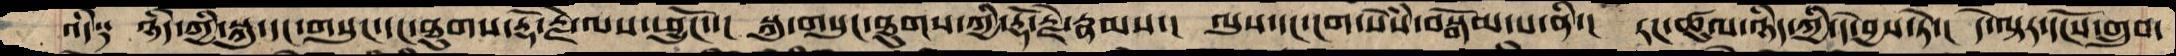འདི༑   ཉིད་ཀྱི་སྐུ་དང་གསུང་དང་ཐུགས་རྡོ་རྗེ་ལས་ཕྱུངོ་་།  སྐུ་གསུང་ཐུགས་ཀྱི་རྡོ་རྗེ་རྣམས་།  ལུས་དང་ངག་སེཾས་བསྒོམ་པ་ནི་།  རང་ཚུལ་ཉིད་ཀྱི་དེ་བྱས་ཏེ་།  དེ་ལྟར་དངོས་གྲུབ་
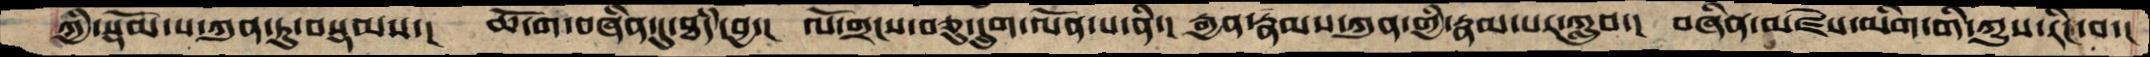ཀྱི་སྡོམ་པ་ཀུན་ཏུ་བསྡམས་།  ཆོ་ག་བཞིན་དུ་ཐདཾ་བྱ་།  ལོ་གྲངས་བཅུ་དྲུག་ལོན་པ་ནི་།  རྒྱན་རྣམས་ཀུན་གྱི་རྣམ་པར་ཀླུབ་།  བཞིན་མཛེས་མིག་གི་ཀྱུས་རིང་བ་།
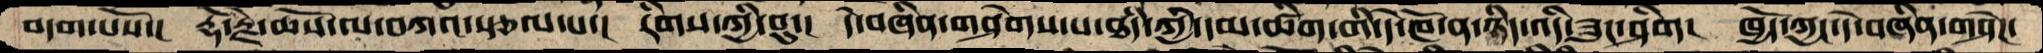བདག་པོས་།   རྡོ་རྗེ་ཆོས་ལ་བཀའ་སྩལ་པ་།  རིགས་ཀྱི་བུ་།  དེ་བཞིན་གཤེགས་པ་ཐཾད་ཀྱི་དམ་ཚིག་གི་དེ་ཁོ་ན་ཉིད་འདི་ཟུང་ཤིག།   ཁྱོད་ཀྱང་དེ་བཞིན་གཤེཌ་
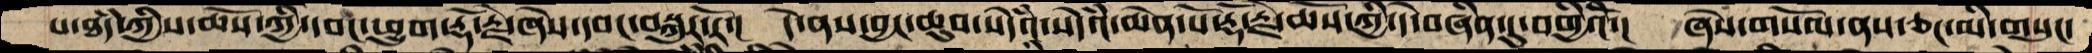པ་ཐདཾ་ཀྱི་ཆོས་ཀྱི་དབང་ཕྱུག་རྡོ་རྗེ་ཞེས་དབང་བསྐུར་རོ་།  དེ་ནས་བྱང་ཆུབ་སེདཾའ་སེདཾའ་ཆེན་པོ་རྡོ་རྗེ་ཆོས་ཀྱི་དེ་བཞིན་དུ་བགྱིའོ་།  ཞེས་གསོལ་ནས་ཅང་མི་གསུང་
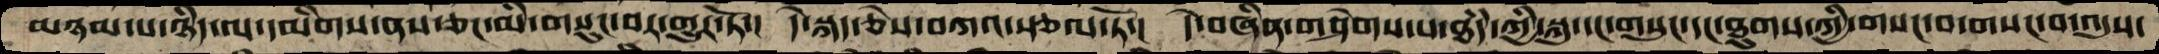མཉམ་པ་ཉིད་ལ་དམིགས་ནས་ཅང་མི་གསུང་བར་གྱུར་ཏོ་།  དེ་སྐད་ཅེས་བཀའ་སྩལ་ཏོ་།  དེ་བཞིན་གཤེགས་པ་ཐདཾ་ཀྱི་སྐུ་དང་གསུང་དང་ཐུགས་ཀྱི་གསང་བ་གསང་བ་འདུས་
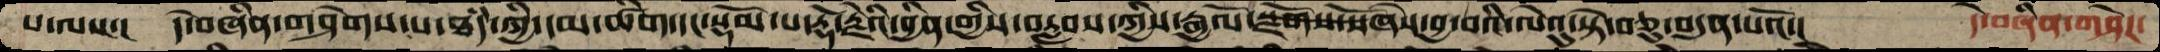པ་ལས་།  དེ་བཞིན་གཤེགས་པ་ཐདཾ་ཀྱི་དམ་ཚིག་སྡོམ་པ་རྡོ་རྗེའི་བྱིན་བརླབས་ཀྱིས་རྒྱལོ་སྫོགས་སོ་ཞེས་བྱ་བའི་ལེའུ་སྟེ་བཅུ་བདུན་པའོ་།    དེ་བཞིན་གཤེཌ་
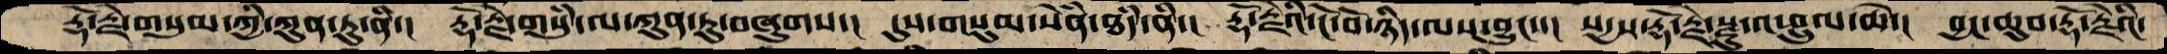རྡོ་རྗེ་གསུམ་གྱི་ཀུན་ཏུ་ནི་།   རྡོ་རྗེ་གསུཾ་ལ་ཀུན་ཏུ་བཞུགས་།  དུས་གསུམ་སེནཾ་ཐཾད་ནི་།  རྡོ་རྗེ་ངོ་བོ་ཉིད་ལས་བྱུང་་།  སདྱས་རྡོ་རྗེ་སྫུ་འཕྲུལ་ཆེ་།  བྱང་ཆུབ་རྡོ་རྗེའི་
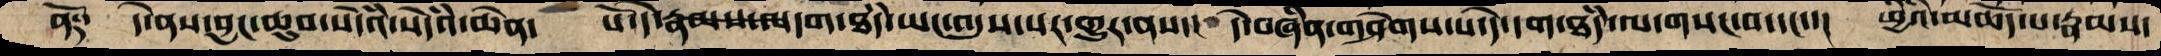ནོ༑   དེ་ནས་བྱང་ཆུབ་སེདཾའ་སེདཾའ་ཆེན་   པོ་དེ་རྣམས་ལདག་ཐཾད་ཡང་འདུས་པར་གྱུར་ནས་།  དེ་བཞིན་གཤེགས་པ་དེ་དག་ཐཾད་ལ་གསང་བ་དང་་།  ཕྱིའི་མཆོད་པ་རྣམས་
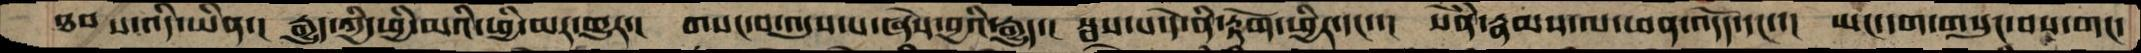ཐབ ས་འདི་ཡིན་།  རྒྱུད་ཀྱི་ཕྱི་མའི་ཕྱི་མར་གྱུར་།  གསང་བ་འདུས་པ་ཞེས་བྱའི་རྒྱུད་།  སྦས་པ་དེ་ནི་རྟོག་ཕྱིར་དང་་།  སེཾན་རྣམས་ལ་ཕན་འདོད་དང་་།  ཡང་དག་གསུང་བས་གང་
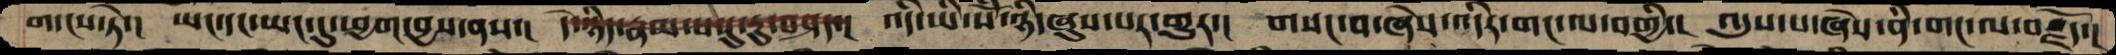གདངས་ཏེ་།  ཡང་དང་ཡང་དུ་ཕྱག་བྱས་ནས་།  དེ་ཉིད་རྣམ་པ་དུ་རུ་བཤད་།  འདི་ཡི་སོཾ་ཉི་ཞུས་པར་གྱུར་།  གསང་བ་ཞེས་འདིར་གང་ལ་བགྱི་།  འདུས་པ་ཞེས་ནི་གང་ལ་བརྗོད་།
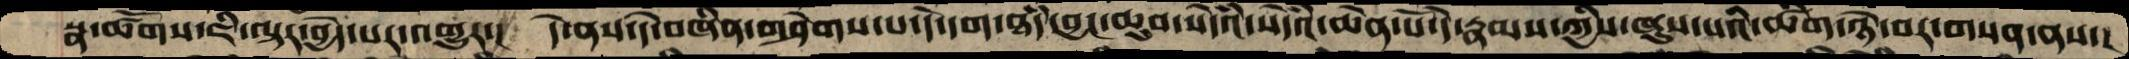སྣ་ཚོགས་ཇི་ལྟར་བྱེད་པར་འགྱུར་།   དེ་ནས་དེ་བཞིན་གཤེགས་པ་དེ་དག་ཐཾད་བྱང་ཆུབ་སེདཾའ་སེདཾའ་ཆེན་པོ་དེ་རྣམས་ཀྱིས་ཞུས་པའི་ཚིག་ཉེ་བར་གསན་ནས་
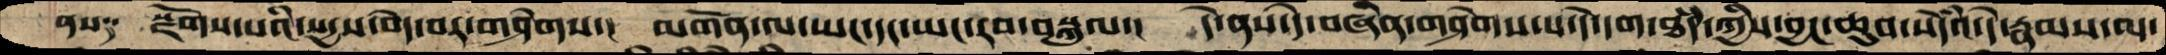ནས༑   སྫོགས་པའི་སདྱས་བདེ་བར་གཤེགས་།  མགོན་ལ་ཡང་དང་ཡང་རབ་བསྐུལ་།   དེ་ནས་དེ་བཞིན་གཤེགས་པ་དེ་དག་ཐཾད་ཀྱིས་བྱང་ཆུབ་སེདཾའ་དེ་རྣམས་ལ་
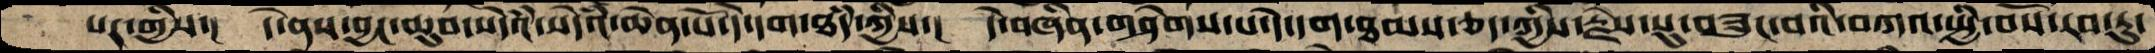པར་གྱིས་།  དེ་ནས་བྱང་ཆུབ་སེདཾའ་སེདཾའ་ཆེན་པོ་དེ་དག་ཐདཾ་ཀྱིས་།  དེ་བཞིན་གཤེགས་པ་དེ་དག་ཐམས་ཅད་ཀྱིས་རྗེས་སུ་བཟུང་བའི་བཀའ་སྤྱི་བོས་རབ་ཏུ་
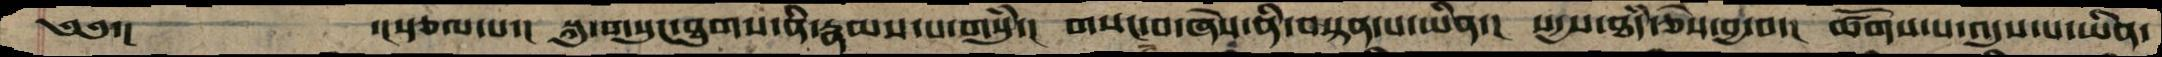༄༅་།      ་།སྩལ་པ་།  སྐུ་གསུང་ཐུགས་ནི་རྣམ་པ་གསུཾ་།  གསང་བ་ཞེས་ནི་བསྟན་པ་ཡིན་།  སདྱས་ཐདཾ་ཅེས་བྱ་བ་།  ཚོགས་པ་འདུས་པ་ཡིན་
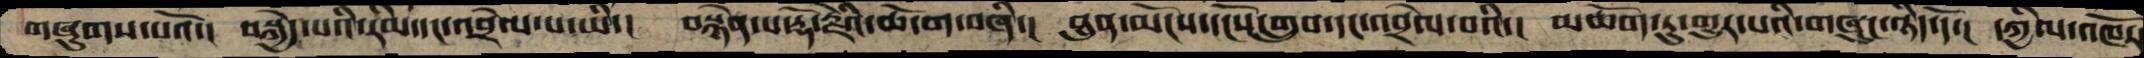གཞུགས་པའོ་།  བསྐྱེད་པའི་རིམ་དང་འབྲེལ་པ་ཡི་།  བསྙེན་པ་རྡོ་རྗེའི་ཆོ་ག་བཞི་།  ཐུན་མོངས་དངོས་གྲུབ་དང་འབྲེལ་བའི་།  མཆོག་ཏུ་གྱུར་པའི་གཞུང་ཉིད་དོ་།  དཀྱིལ་འཁོར་
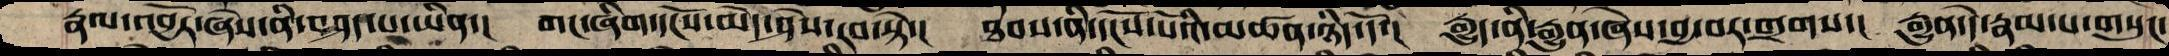རྣལ་འབྱོར་ཞེས་ནི་བཤད་པ་ཡིན་།  གང་ཞིག་དངོས་མེད་ཤེས་རབ་སྟེ་།  ཐབས་ནི་དངོས་པོའི་མཚན་ཉིད་དོ་།  རྒྱུད་ནི་རྒྱུན་ཞེས་བྱ་བར་གྲགས་།  རྒྱུན་དེ་རྣམ་པ་གསུང་
